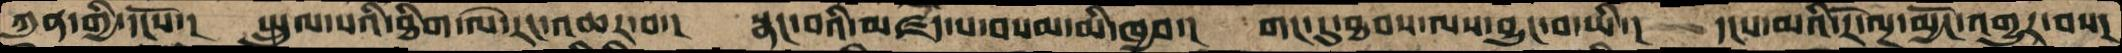ཀུན་གྱི་དངོས་།  སྤྲུལ་པའི་ཐིག་ལེ་རང་འཆར་བ་།  སྣང་བའི་མཛད་པ་བསམ་མི་ཁྱབ་།  གང་དུ་ཐབས་ལས་བྱུང་བ་ཡི་།  དངས་མའི་རོ་ལྔ་མྱོང་འགྱུར་བས་།
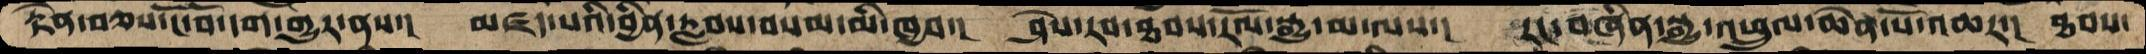རྟེན་བཅས་ངོ་བོ་དག་གྱུར་ནས་།  མཛད་པའི་བྱིན་རླབས་བསམ་མི་ཁྱབ་།  ཤེས་རབ་ཐབས་རོལ་སྒྱུ་མ་ལས་།  རང་བཞིན་སྒྱུ་འཕྲུལ་ཆེན་པོ་འཆར་།  ཐབས་
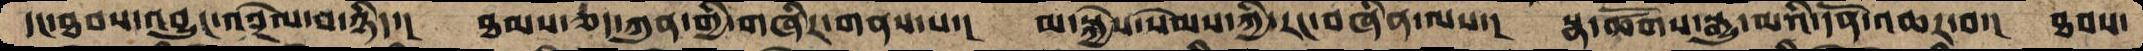དང་ཐབས་འབྱུང་འབྲེལ་བ་ཉིད་།  ཐམས་ཅད་ཀུན་གྱི་གཞིར་གནས་པ་།  མ་སྐྱེས་སེམས་ཀྱི་རང་བཞིན་ལས།  སྣ་ཚོགས་སྒྱུ་མའི་དོན་འཆར་བ་།  ཐབས་
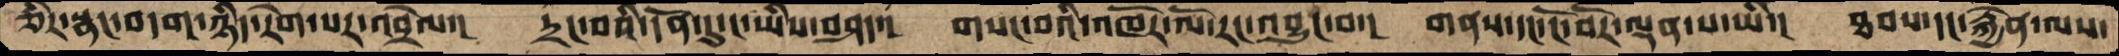ཅིར་སྣང་བདག་ཉིད་རེག་པར་འབྲེལ་།  དྲང་བའི་དོན་དུ་ང་ཡིས་བཤད་།  གསང་བའི་འཁོར་ལོ་རང་འབྱུང་བ་།  གནས་དང་ངོ་བོར་ལྡན་པ་ཡི་།  ཐབས་དང་རྐྱེན་ལས་
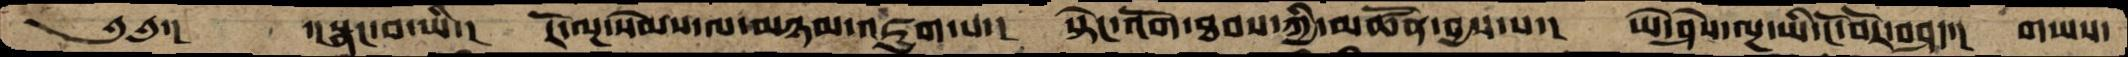༄༅་།     ་།སྣང་བ་ཡི་།  རོ་ལྔ་སེམས་ལ་མཉམ་འཇུག་པ་།  སྟེང་འོག་ཐབས་ཀྱི་མཚོན་བྱས་པ་།  ཡེ་ཤེས་ལྔ་ཡི་ངོ་བོར་བཤད་།  གཡས་
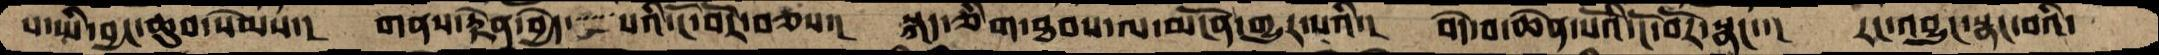པ་ཡི་བྱང་ཆུབ་སེམས་།  གནས་རྟེན་བྱེད་་་་པའི་ངོ་བོར་བཅས་།  སྐད་ཅིག་ཐབས་ལ་མངོན་གྱུར་པའི་།  བདེ་བ་ཆེན་པོའི་ངོ་བོར་སྣང་་།  རང་འབྱུང་སྣང་བའི་
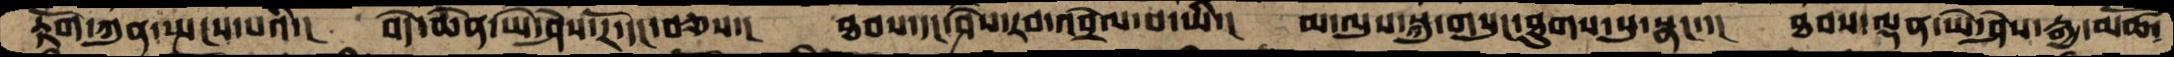རྟོག་ཀུན་སྤངས་པའི་།  བདེ་ཆེན་ཡེ་ཤེས་རོ་དང་བཅས་།  ཐབས་དང་ཤེས་རབ་འབྲེལ་བ་ཡི་།  མ་ལུས་སྐུ་གསུང་ཐུགས་སུ་སྣང་་།  ཐབས་ལྡན་ཡེ་ཤེས་རྒྱ་མཚོ་
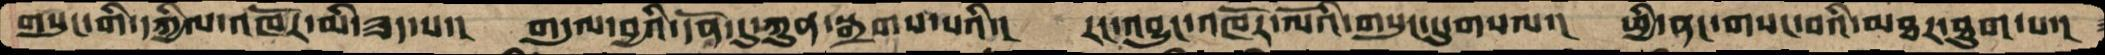གསུང་གི་དཀྱིལ་འཁོར་མི་ཟད་པ་།  གདུལ་བྱའི་དོན་དུ་ཀུན་སྒྲགས་པའི་།  རང་བྱུང་འཁོར་ལོའི་གསུང་དུ་གསལ་།  ཕྱི་ནང་གསང་བའི་མཐར་ཐུག་པ་།
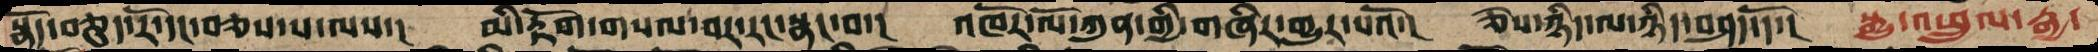སྣོད་བཅུད་རོ་དང་བཅས་པ་ལས་།  མི་རྟོག་གསལ་བར་རང་སྣང་བ་།  འཁོར་ལོ་ཀུན་གྱི་གཞིར་གྱུར་པའོ་།  ཅེས་ཉིད་ལ་ཉིད་བཤད་དོ་།  སྒྱུ་འཕྲུལ་རྒྱ་
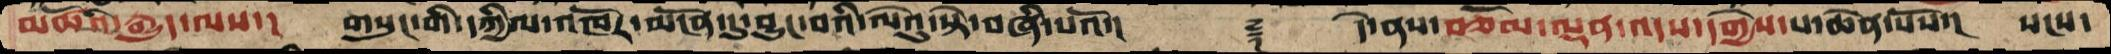མཚོའི་རྒྱུད་ལས་།  གསུང་གི་དཀྱིལ་འཁོར་མངོན་དུ་བྱུང་བའི་ལེའུ་སྟེ་བཞི་པའོ་།   ࿑   དེ་ནས་ཅོམ་ལྡན་འདས་དགྱེས་པ་ཆེན་པོས་།  སངས་
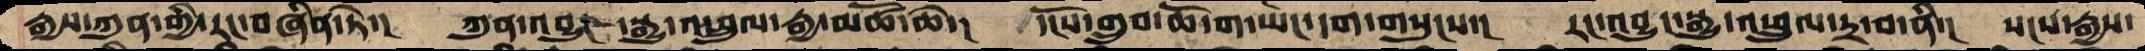རྒྱས་ཀུན་གྱི་རང་བཞིན་ཏེ་།  ཀུན་འབྱུང་སྒྱུ་འཕྲུལ་རྒྱ་མཚོ་ཆེ་།  དངོས་གྲུབ་ཆོ་ག་ཡང་དག་གསུངས་།  རང་འབྱུང་སྒྱུ་འཕྲུལ་དྲ་བ་ནི་།  སངས་རྒྱས་
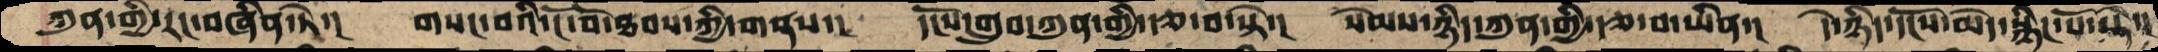ཀུན་གྱི་རང་བཞིན་ཏེ་།  གསང་བའི་ངོ་བོ་ཐབས་ཀྱི་གནས་།  དངོས་གྲུབ་ཀུན་གྱི་རྩ་བ་སྟེ་།  སེམས་ཉིད་ཀུན་གྱི་རྩ་བ་ཡིན་།  དེ་ཉིད་དངོས་མེད་སྙིང་པོ་སྟེ་།
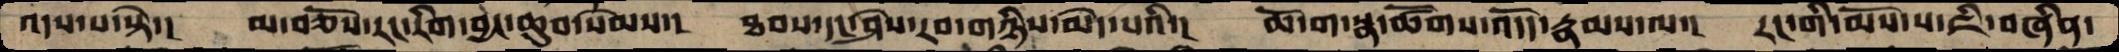འདས་པ་སྟེ་།  མ་བཅོས་རང་རིག་བྱང་ཆུབ་སེམས་།  ཐབས་དང་ཤེས་རབ་གཉིས་མེད་པའི་།  ཆོ་ག་སྣ་ཚོགས་འདོད་རྣམས་ལ་།  རང་གི་མོས་པ་ཇི་བཞིན་
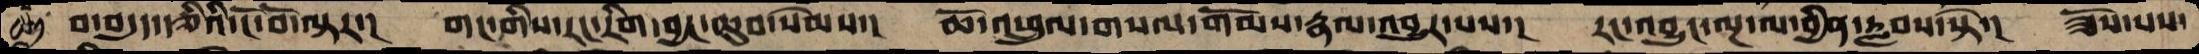བ་བདུད་རྩིའི་ངོ་བོ་ལྟར་།  གང་གིས་རང་རིག་བྱང་ཆུབ་སེམས་།  ཆོ་འཕྲུལ་གསལ་གོམས་རྣལ་འབྱུར་པས་།  རང་བྱུང་ལྔ་ལ་བྱིན་རླབས་སྟེ་།  ཟོས་པས་
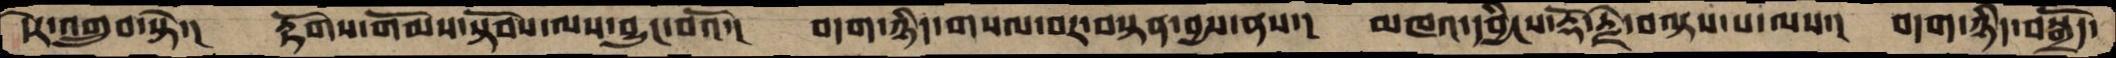དེར་འགྲུབ་སྟེ་།  རྟོགས་གོམས་སྟོབས་ལས་བྱུང་བའོ་།  བདག་ཉིད་གསལ་བར་བསྟན་བྱས་ནས་།  མཁའ་དབྱིངས་རྡོ་རྗེ་བལྟས་པ་ལས་།  བདག་ཉིད་བསྒྲོད་
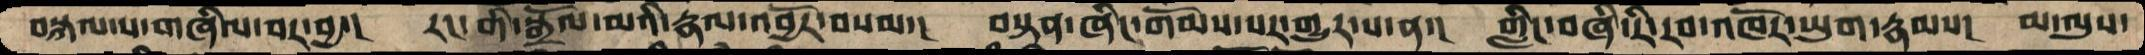བསྐལ་པ་གཞིལ་བར་བྱ་།  རང་གི་སྒྲོལ་མའི་རྣལ་འབྱོར་བསམ་།  བསྟན་ཞིང་གོམས་པར་གྱུར་པ་ན་།  གླིང་བཞི་རི་རབ་འཁོར་ཡུག་རྣམས་།  མ་ལུས་
